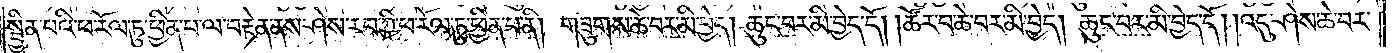སྦྱིན་པའི་ཕ་རོལ་ཏུ་ཕྱིན་པ་ལ་བརྟེན་ནས་ཤེས་རབ་ཀྱི་ཕ་རོལ་ཏུ་ཕྱིན་པ་ནི། གཟུགས་ཆེ་བར་མི་བྱེད། ཆུང་བར་མི་བྱེད་དོ། །ཚོར་བ་ཆེ་བར་མི་བྱེད། ཆུང་བར་མི་བྱེད་དོ། །འདུ་ཤེས་ཆེ་བར་
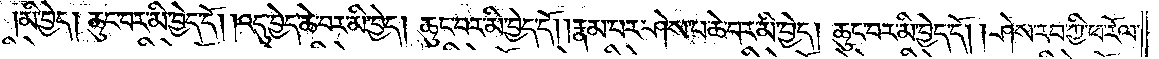མི་བྱེད། ཆུང་བར་མི་བྱེད་དོ། །འདུ་བྱེད་ཆེ་བར་མི་བྱེད། ཆུང་བར་མི་བྱེད་དོ། །རྣམ་པར་ཤེས་པ་ཆེ་བར་མི་བྱེད། ཆུང་བར་མི་བྱེད་དོ། །ཤེས་རབ་ཀྱི་ཕ་རོལ་
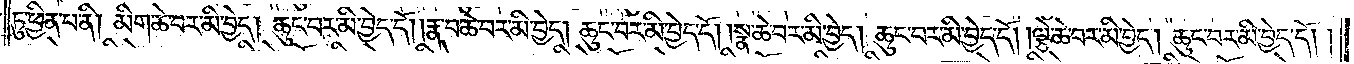ཏུ་ཕྱིན་པ་ནི། མིག་ཆེ་བར་མི་བྱེད། ཆུང་བར་མི་བྱེད་དོ། །རྣ་བ་ཆེ་བར་མི་བྱེད། ཆུང་བར་མི་བྱེད་དོ། །སྣ་ཆེ་བར་མི་བྱེད། ཆུང་བར་མི་བྱེད་དོ། །ལྕེ་ཆེ་བར་མི་བྱེད། ཆུང་བར་མི་བྱེད་དོ། །
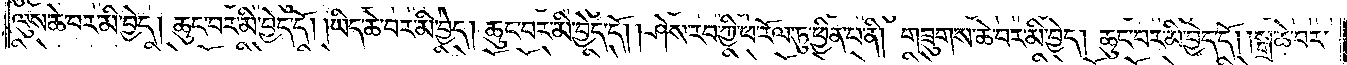ལུས་ཆེ་བར་མི་བྱེད། ཆུང་བར་མི་བྱེད་དོ། །ཡིད་ཆེ་བར་མི་བྱེད། ཆུང་བར་མི་བྱེད་དོ། །ཤེས་རབ་ཀྱི་ཕ་རོལ་ཏུ་ཕྱིན་པ་ནི། གཟུགས་ཆེ་བར་མི་བྱེད། ཆུང་བར་མི་བྱེད་དོ། །སྒྲ་ཆེ་བར་
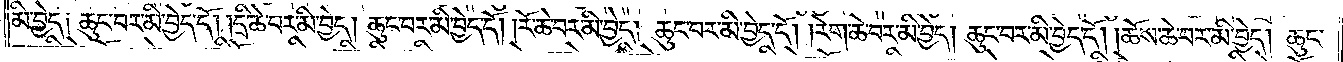མི་བྱེད༑ ཆུང་བར་མི་བྱེད་དོ། །དྲི་ཆེ་བར་མི་བྱེད། ཆུང་བར་མི་བྱེད་དོ། །རོ་ཆེ་བར་མི་བྱེད། ཆུང་བར་མི་བྱེད་དོ། །རེག་ཆེ་བར་མི་བྱེད། ཆུང་བར་མི་བྱེད་དོ། །ཆོས་ཆེ་བར་མི་བྱེད། ཆུང་
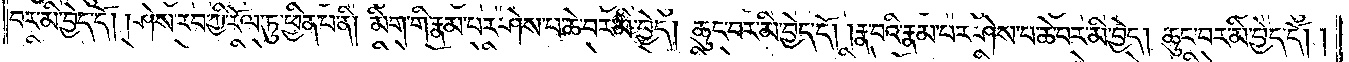བར་མི་བྱེད་དོ། །ཤེས་རབ་ཀྱི་ཕ་རོལ་ཏུ་ཕྱིན་པ་ནི། མིང་གི་རྣམ་པར་ཤེས་པ་ཆེ་བར་མི་བྱེད། ཆུང་བར་མི་བྱེད་དོ། །རྣ་བའི་རྣམ་པར་ཤེས་པ་ཆེ་བར་མི་བྱེད། ཆུང་བར་མི་བྱེད་དོ། །
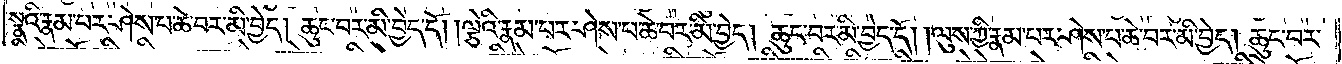སྣའི་རྣམ་པར་ཤེས་པ་ཆེ་བར་མི་བྱེད། ཆུང་བར་མི་བྱེད་དོ། །ལྕེའི་རྣམ་པར་ཤེས་པ་ཆེ་བར་མི་བྱེད། ཆུང་བར་མི་བྱེད་དོ། །ལུས་ཀྱི་རྣམ་པར་ཤེས་པ་ཆེ་བར་མི་བྱེད། ཆུང་བར་
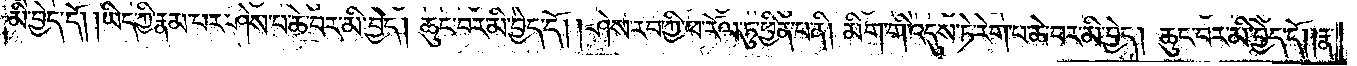མི་བྱེད་དོ། །ཡིད་ཀྱི་རྣམ་པར་ཤེས་པ་ཆེ་བར་མི་བྱེད། ཆུང་བར་མི་བྱེད་དོ། །ཤེས་རབ་ཀྱི་ཕ་རོལ་ཏུ་ཕྱིན་པ་ནི། མིག་གི་འདུས་ཏེ་རེག་པ་ཆེ་བར་མི་བྱེད། ཆུང་བར་མི་བྱེད་དོ། །རྣ་
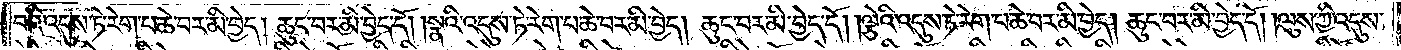བའི་འདུས་ཏེ་རེག་པ་ཆེ་བར་མི་བྱེད། ཆུང་བར་མི་བྱེད་དོ། །སྣའི་འདུས་ཏེ་རེག་པ་ཆེ་བར་མི་བྱེད། ཆུང་བར་མི་བྱེད་དོ། །ལྕེའི་འདུས་ཏེ་རེག་པ་ཆེ་བར་མི་བྱེད། ཆུང་བར་མི་བྱེད་དོ། །ལུས་ཀྱི་འདུས་
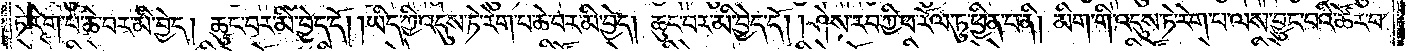ཏེ་རེག་པ་ཆེ་བར་མི་བྱེད། ཆུང་བར་མི་བྱེད་དོ། །ཡིད་ཀྱི་འདུས་ཏེ་རེག་པ་ཆེ་བར་མི་བྱེད། ཆུང་བར་མི་བྱེད་དོ། །ཤེས་རབ་ཀྱི་ཕ་རོལ་ཏུ་ཕྱིན་པ་ནི། མིག་གི་འདུས་ཏེ་རེག་པ་ལས་བྱུང་བའི་ཚོར་བ་
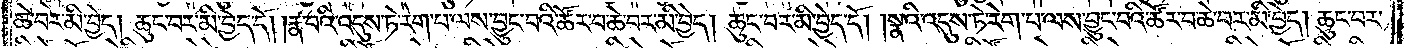ཆེ་བར་མི་བྱེད། ཆུང་བར་མི་བྱེད་དོ། །རྣ་བའི་འདུས་ཏེ་རེག་པ་ལས་བྱུང་བའི་ཚོར་བ་ཆེ་བར་མི་བྱེད། ཆུང་བར་མི་བྱེད་དོ། །སྣའི་འདུས་ཏེ་རེག་པ་ལས་བྱུང་བའི་ཚོར་བ་ཆེ་བར་མི་བྱེད། ཆུང་བར་
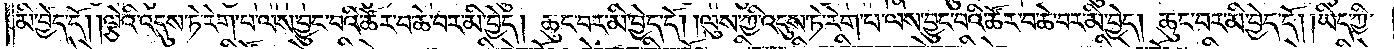མི་བྱེད་དོ། །ལྕེའི་འདུས་ཏེ་རེག་པ་ལས་བྱུང་བའི་ཚོར་བ་ཆེ་བར་མི་བྱེད། ཆུང་བར་མི་བྱེད་དོ། །ལུས་ཀྱི་འདུས་ཏེ་རེག་པ་ལས་བྱུང་བའི་ཚོར་བ་ཆེ་བར་མི་བྱེད། ཆུང་བར་མི་བྱེད་དོ། །ཡིད་ཀྱི་
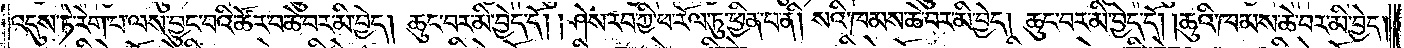འདུས་ཏེ་རེག་པ་ལས་བྱུང་བའི་ཚོར་བ་ཆེ་བར་མི་བྱེད། ཆུང་བར་མི་བྱེད་དོ། །ཤེས་རབ་ཀྱི་ཕ་རོལ་ཏུ་ཕྱིན་པ་ནི། སའི་ཁམས་ཆེ་བར་མི་བྱེད། ཆུང་བར་མི་བྱེད་དོ། །ཆུའི་ཁམས་ཆེ་བར་མི་བྱེད།
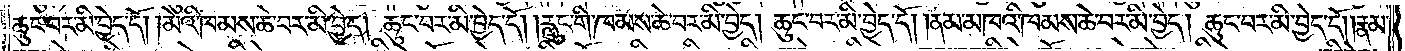ཆུང་བར་མི་བྱེད་དོ། །མེའི་ཁམས་ཆེ་བར་མི་བྱེད། ཆུང་བར་མི་བྱེད་དོ། །རླུང་གི་ཁམས་ཆེ་བར་མི་བྱེད། ཆུང་བར་མི་བྱེད་དོ། །ནམ་མཁའི་ཁམས་ཆེ་བར་མི་བྱེད། ཆུང་བར་མི་བྱེད་དོ། །རྣམ་
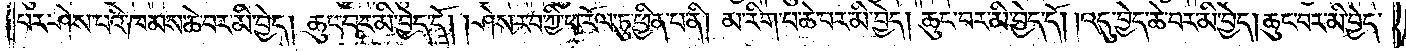པར་ཤེས་པའི་ཁམས་ཆེ་བར་མི་བྱེད། ཆུང་བར་མི་བྱེད་དོ། །ཤེས་རབ་ཀྱི་ཕ་རོལ་ཏུ་ཕྱིན་པ་ནི། མ་རིག་པ་ཆེ་བར་མི་བྱེད། ཆུང་བར་མི་བྱེད་དོ། །འདུ་བྱེད་ཆེ་བར་མི་བྱེད། ཆུང་བར་མི་བྱེད་
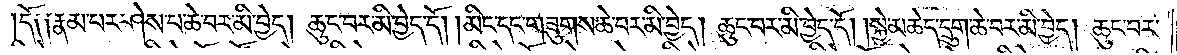དོ༑ ༑རྣམ་པར་ཤེས་པ་ཆེ་བར་མི་བྱེད། ཆུང་བར་མི་བྱེད་དོ། །མིང་དང་གཟུགས་ཆེ་བར་མི་བྱེད། ཆུང་བར་མི་བྱེད་དོ། །སྐྱེ་མཆེད་དྲུག་ཆེ་བར་མི་བྱེད། ཆུང་བར་
